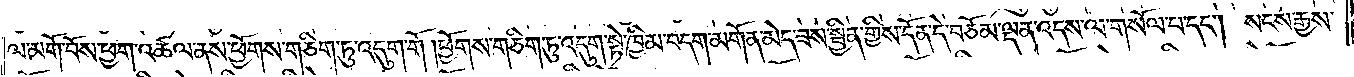ལ་མགོ་བོས་ཕྱག་འཚལ་ནས་ཕྱོགས་གཅིག་ཏུ་འདུག་གོ །ཕྱོགས་གཅིག་ཏུ་འདུག་སྟེ་ཁྱིམ་བདག་མགོན་མེད་ཟས་སྦྱིན་གྱིས་དོན་དེ་བཅོམ་ལྡན་འདས་ལ་གསོལ་པ་དང༌། སངས་རྒྱས་
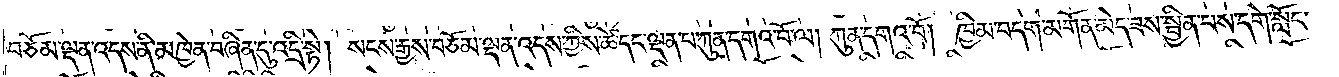བཅོམ་ལྡན་འདས་ནི་མཁྱེན་བཞིན་དུ་འདྲི་སྟེ། སངས་རྒྱས་བཅོམ་ལྡན་འདས་ཀྱིས་ཚེ་དང་ལྡན་པ་ཀུན་དགའ་བོ་ལ། ཀུན་དགའ་བོ། ཁྱིམ་བདག་མགོན་མེད་ཟས་སྦྱིན་པས་དགེ་སློང་
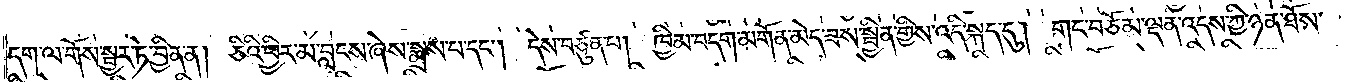དག་ལ་གོས་སྦྱར་ཏེ་བྱིན་ན། ཅིའི་ཕྱིར་མ་བླངས་ཞེས་སྨྲས་པ་དང༌། དེས་བཙུན་པ། ཁྱིམ་བདག་མགོན་མེད་ཟས་སྦྱིན་གྱིས་འདི་སྐད་དུ། གང་བཅོམ་ལྡན་འདས་ཀྱི་ཉན་ཐོས་
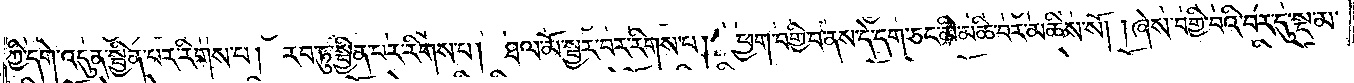ཀྱི་དགེ་འདུན་སྦྱིན་པར་རིགས་པ། རབ་ཏུ་སྦྱིན་པར་རིགས་པ། ཐལ་མོ་སྦྱར་བར་རིགས་པ། ཕྱག་བགྱི་བ་ནས་དེ་དག་ཅང་མི་མཆི་བར་མཆིས་སོ། །ཞེས་བགྱི་བའི་བར་དུ་སྔ་མ་
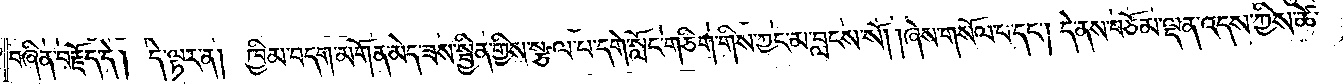བཞིན་བརྗོད་དེ། དེ་ལྟར་ན། ཁྱིམ་བདག་མགོན་མེད་ཟས་སྦྱིན་གྱིས་སྩལ་པ་དགེ་སློང་གཅིག་གིས་ཀྱང་མ་བླངས་སོ། །ཞེས་གསོལ་པ་དང༌། དེ་ནས་བཅོམ་ལྡན་འདས་ཀྱིས་ཚེ་
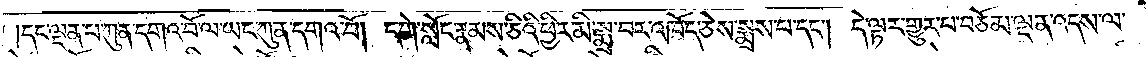དང་ལྡན་པ་ཀུན་དགའ་བོ་ལ་ཡང་ཀུན་དགའ་བོ། དགེ་སློང་རྣམས་ཅིའི་ཕྱིར་མི་སྨྲ་བར་འཁོད་ཅེས་སྨྲས་པ་དང༌། དེ་ལྟར་གྱུར་པ་བཅོམ་ལྡན་འདས་ལ་
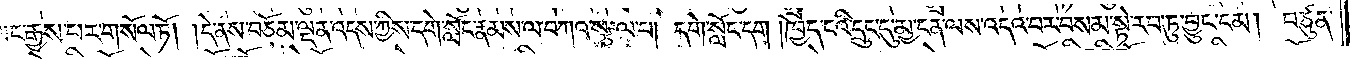ཡང་རྒྱས་པར་གསོལ་ཏོ། །དེ་ནས་བཅོམ་ལྡན་འདས་ཀྱིས་དགེ་སློང་རྣམས་ལ་བཀའ་སྩལ་པ། དགེ་སློང་དག །ཁྱེད་ངའི་དྲུང་དུ་མྱ་ངན་ལས་འདའ་བར་བསམ་སྟེ་རབ་ཏུ་བྱུང་ངམ། བཙུན་
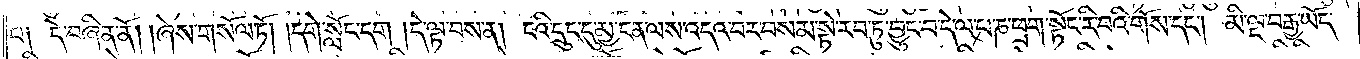པ༑ དེ་བཞིན་ནོ། །ཞེས་གསོལ་ཏོ། །དགེ་སློང་དག །དེ་ལྟ་བས་ན། ངའི་དྲུང་དུ་མྱ་ངན་ལས་འདའ་བར་བསམ་སྟེ་རབ་ཏུ་བྱུང་བ་དེ་ལ་པ་ཎ་ཕྲག་སྟོང་རི་བའི་གོས་དང༌། མི་ལྔ་བརྒྱ་ཡོད་
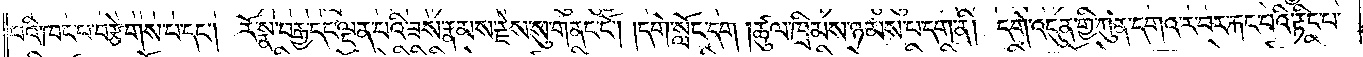པའི་ཁང་པ་བརྩེགས་པ་དང༌། རོ་སྣ་བརྒྱ་དང་ལྡན་པའི་ཟས་རྣམས་རྗེས་སུ་གནང་ངོ༌། །དགེ་སློང་དག །ཚུལ་ཁྲིམས་ཉམས་པ་དག་ནི། དགེ་འདུན་གྱི་ཀུན་དགའ་ར་བར་རྐང་པའི་རྟིང་པ་
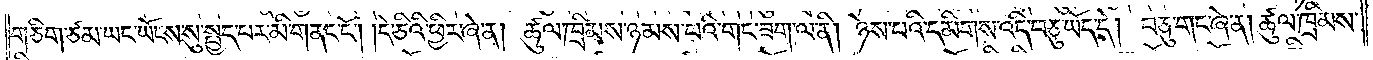གཅིག་ཙམ་ཡང་ཡོངས་སུ་སྤྱད་པར་མི་གནང་ངོ༌། །དེ་ཅིའི་ཕྱིར་ཞེ་ན། ཚུལ་ཁྲིམས་ཉམས་པའི་གང་ཟག་ལ་ནི། ཉེས་པའི་དམིགས་འདི་བཅུ་ཡོད་དེ། བཅུ་གང་ཞེ་ན། ཚུལ་ཁྲིམས་
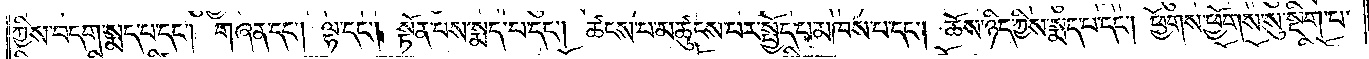ཀྱིས་བདག་སྨད་པ་དང༌། གཞན་དང༌། ལྷ་དང༌། སྟོན་པས་སྨད་པ་དང༌། ཚངས་པ་མཚུངས་པར་སྤྱོད་པ་མཁས་པ་དང༌། ཆོས་ཉིད་ཀྱིས་སྨད་པ་དང༌། ཕྱོགས་ཕྱོགས་སུ་སྡིག་པ་
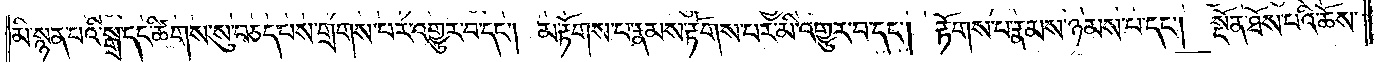མི་སྙན་པའི་སྒྲ་དང་ཚིགས་སུ་བཅད་པས་གྲགས་པར་འགྱུར་བ་དང༌། མ་རྟོགས་པ་རྣམས་རྟོགས་པར་མི་འགྱུར་བ་དང༌། རྟོགས་པ་རྣམས་ཉམས་པ་དང༌། སྔོན་ཐོས་པའི་ཆོས་
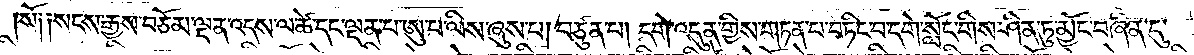སོ༑ ༑སངས་རྒྱས་བཅོམ་ལྡན་འདས་ལ་ཚེ་དང་ལྡན་པ་ཨུ་པ་ལིས་ཞུས་པ། བཙུན་པ། དགེ་འདུན་གྱིས་གཏན་པ་བཏིང་བ་དགེ་སློང་གིས་ཤིན་ཏུ་མྱོང་བཞིན་དུ་
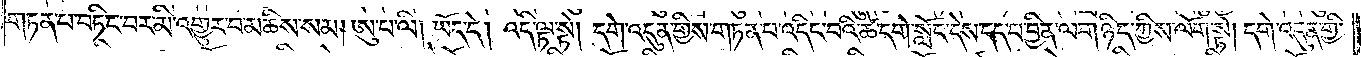གཏན་པ་བཏིང་བར་མི་འགྱུར་བ་མཆིས་སམ། ཨུ་པ་ལི། ཡོད་དེ། འདི་ལྟ་སྟེ། དགེ་འདུན་གྱིས་གཏན་པ་འདིང་བའི་ཚེ་དགེ་སློང་དེས་དད་པ་བྱིན་ལ་གཉིད་ཀྱིས་ལོག་སྟེ། དགེ་འདུན་གྱི་
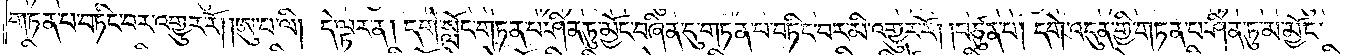གཏན་པ་བཏིང་བར་འགྱུར་རོ། །ཨུ་པ་ལི། དེ་ལྟར་ན། དགེ་སློང་གཏན་པ་ཤིན་ཏུ་མྱོང་བཞིན་དུ་གཏན་པ་བཏིང་བར་མི་འགྱུར་རོ། །བཙུན་པ། དགེ་འདུན་གྱི་གཏན་པ་ཤིན་ཏུ་མ་མྱོང་
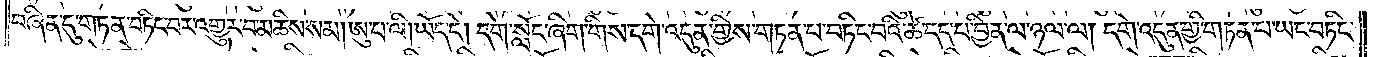བཞིན་དུ་གཏན་བཏིང་བར་འགྱུར་བ་མཆིས་སམ། ཨུ་པ་ལི། ཡོད་དེ། དགེ་སློང་ཞིག་གིས་དགེ་འདུན་གྱིས་གཏན་པ་བཏིང་བའི་ཚེ་དད་པ་བྱིན་ལ་ཉལ་ལ། དགེ་འདུན་གྱི་གཏན་པ་ཡང་བཏིང་
